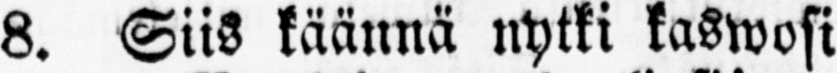8. Siis käännä nytki kaswosi
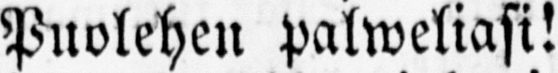Puolehen Palweliasi!
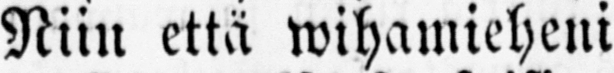Niin että wihamieheni
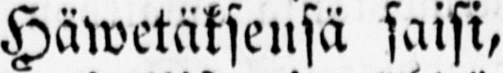Häwetäksensä saisi,
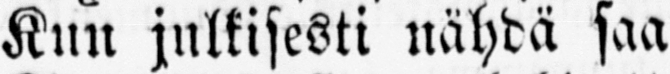Kun julkisesti nähdä saa
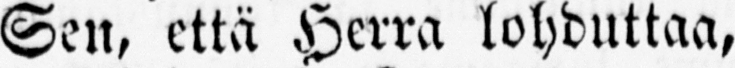Sen, että Herra lohduttaa,
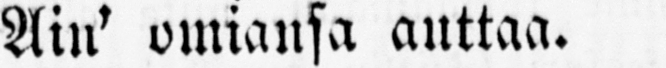Ain' omiansa auttaa.
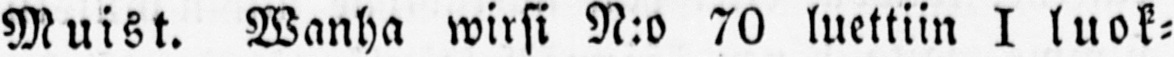Muist. Wanha wirsi N:o 70 luettiin I luok-
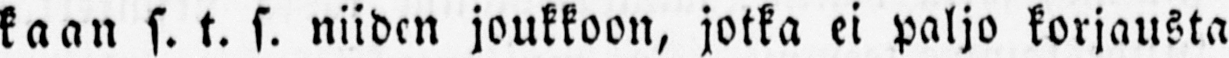kaan s. t. s. niiden joukkoon, jotka ei paljo korjausta
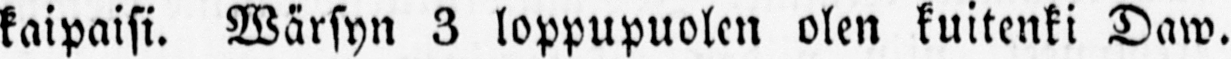kaipaisi. Wärsyn 3 loppupuolen olen kuitenki Daw.
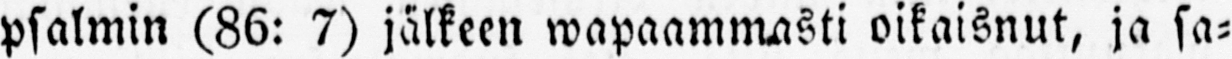psalmin (86: 7) jälkeen wapaammasti oikaisnut, ja sa-
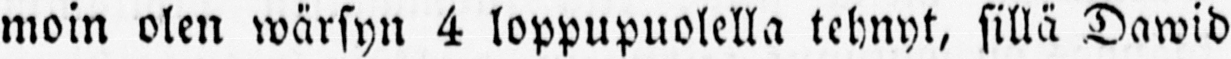moin olen wärsyn 4 loppupuolella tehnyt, sillä Dawid
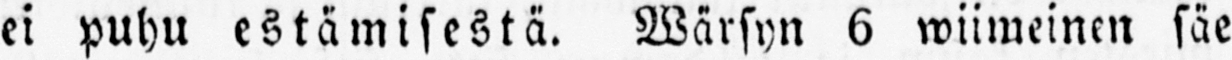ei puhu estämisestä. Wärsyn 6 wiimeinen säe
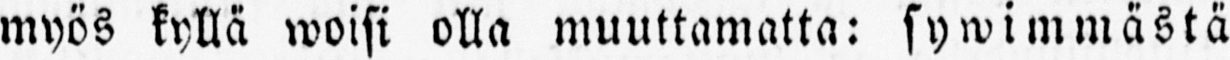myös kyllä woisi olla muuttamatta: sywimmästä
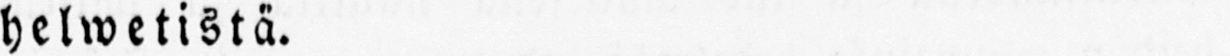helwetistä.
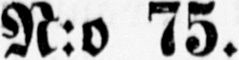N:o 75.
